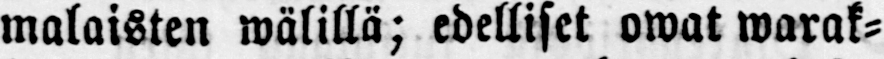malaisten wälillä; edelliset owat warak-
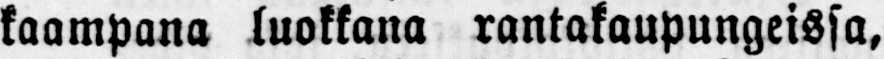kaampana luokkana rantakaupungeissa,
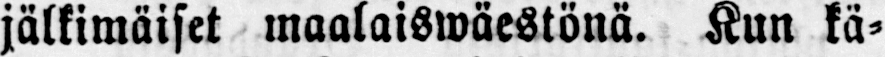jälkimäiset maalaiswäestönä. Kun kä-
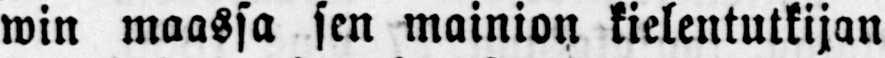win maassa sen mainion kielentutkijan
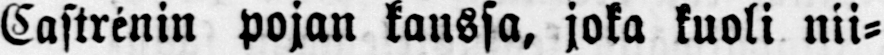Castrénin pojan kanssa, joka kuoli nii-
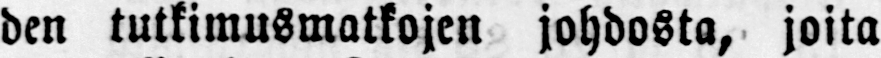den tutkimusmatkojen johdosta, joita
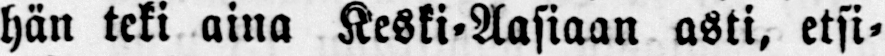hän teki aina Keski-Aasiaan asti, etsi-
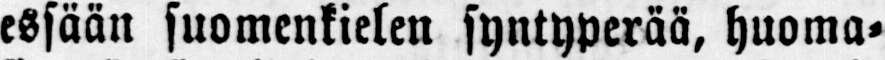essään suomenkielen syntyperää, huoma-
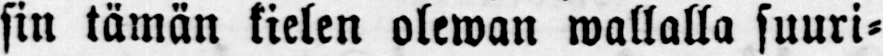sin tämän kielen olewan wallalla suuri-
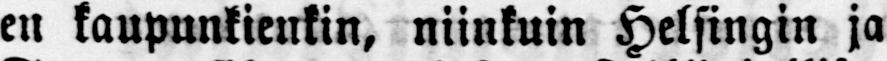en kaupunkienkin, niinkuin Helsingin ja
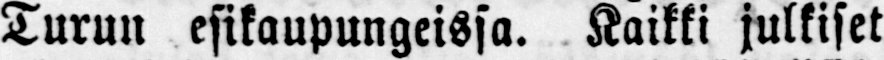Turun esikaupungeissa. Kaikki julkiset
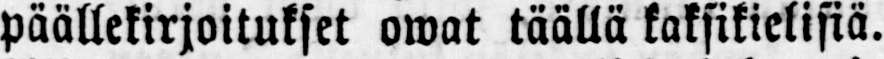päällekirjoitukset owat täällä kaksikielisiä.
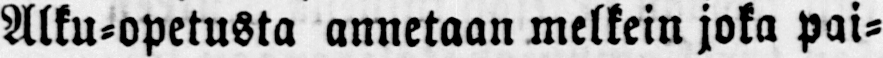Alku-opetusta annetaan melkein joka pai-
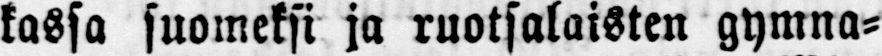kassa suomeksi ja ruotsalaisten gymna-
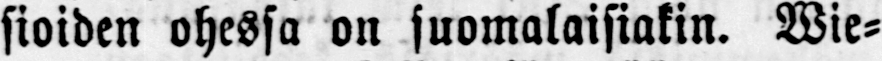sioiden ohessa on suomalaisiakin. Wie-
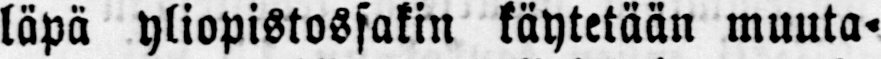läpä yliopistossakin käytetään muuta-
